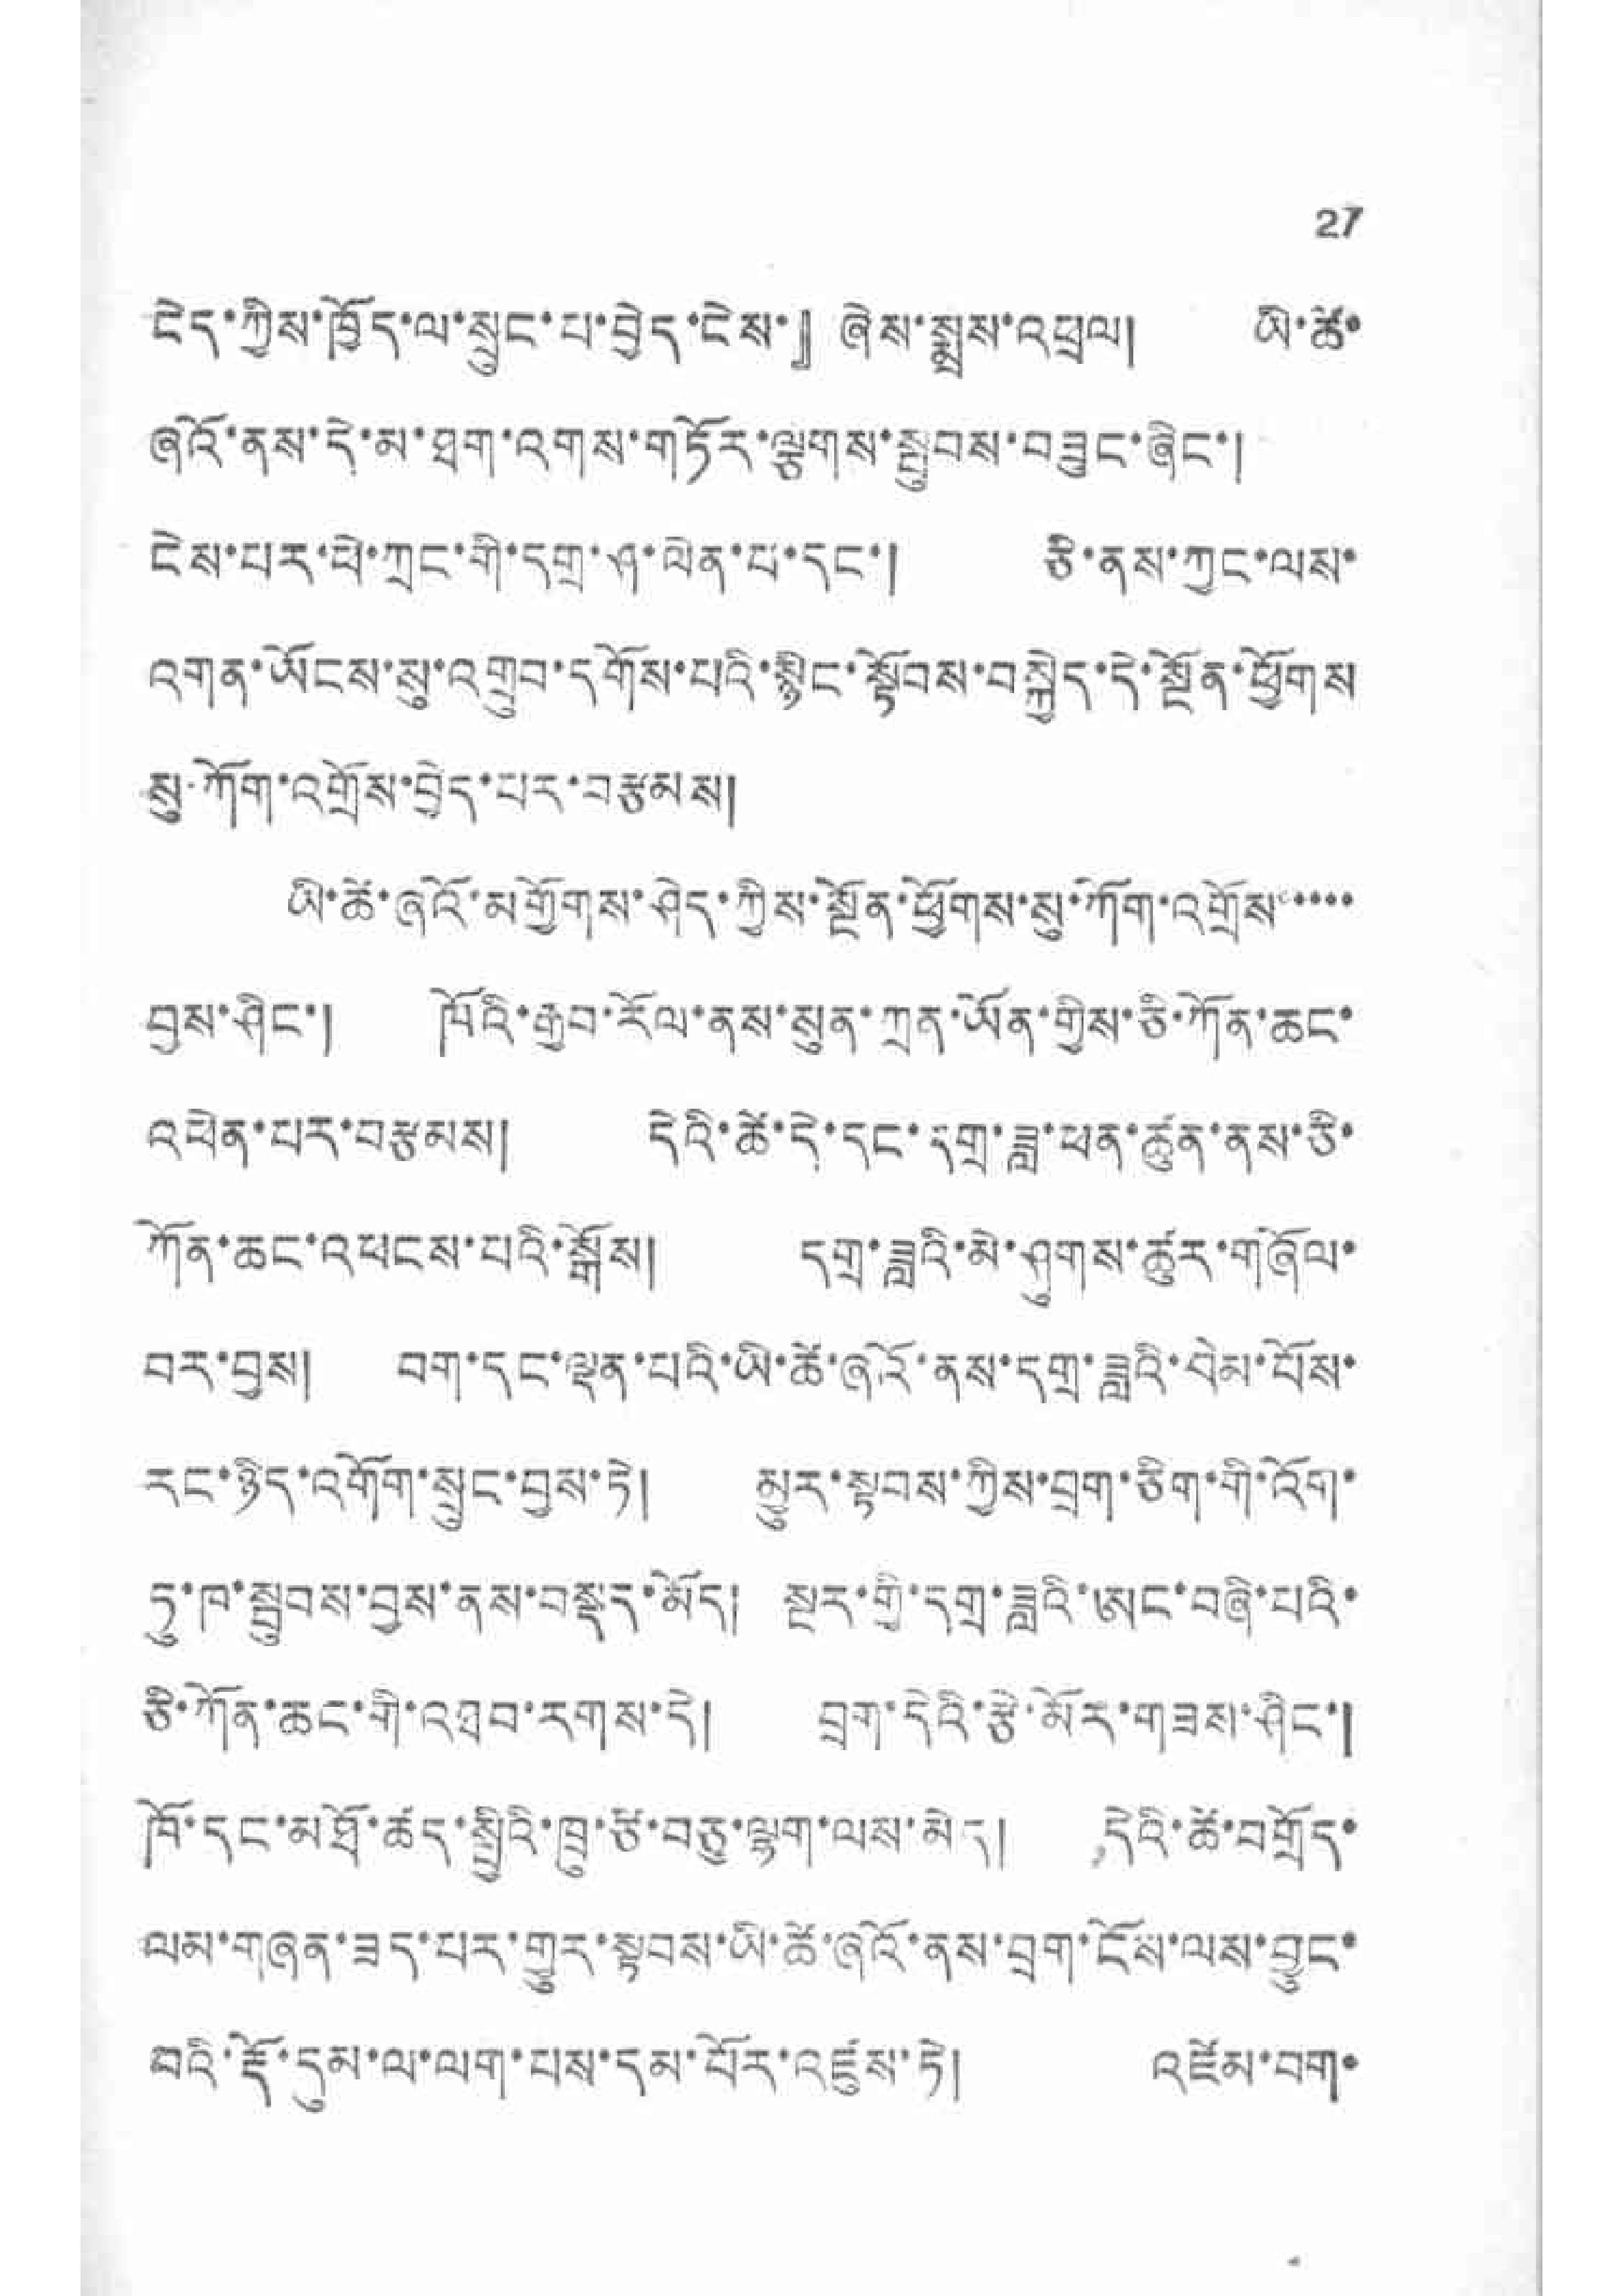27
ངེད་ཀྱིས་ཁྱོད་ལ་སྲུང་པ་བྱེད་ངེས་』ཞེས་སྨྲས་འཕྲལ། ཡི་ཚོ་
ཞའོ་ནས་དེ་མ་ཐག་འགས་གཏོར་ལྕགས་སྦུབས་བཟུང་ཞིང་།
ངེས་པར་ཕེ་ཀྲང་གི་དགྲ་ཤ་ལེན་པ་དང་། ཅི་ནས་ཀྱང་ལས་
འགན་ཡོངས་སུ་འགྲུབ་དགོས་པའི་སྙིང་སྟོབས་བསྐྱེད་དེ་སྔོན་ཕྱོགས
སུ་ཀོག་འགྲོས་བྱེད་པར་བརྩམས།
ཡི་ཚེ་ཞའོ་མགྱོགས་ཤེད་ཀྱིས་སྔོན་ཕྱོགས་སུ་ཀོག་འགྲོས་་་་་
བྱས་ཤིང་། ཁོའི་རྒྱབ་རོལ་ནས་སུན་ཀྲན་ཡོན་གྱིས་ཅི་ཀོན་ཆང་
འཕེན་པར་བརྩམས། དེའི་ཚེ་དེ་དང་དགྲ་ཟླ་ཕན་ཚུན་ནས་ཅི་
ཀོན་ཆང་འཕངས་པའི་སྒོས། དགྲ་ཟླའི་མེ་ཤུགས་ཚུར་གཞོལ་
བར་བྱས། བག་དང་ལྡན་པའི་ཡི་ཚེ་ཞའོ་ནས་དགྲ་ཟླའི་བེམ་པོས་
རང་ཉིད་འགོག་སྲུང་བྱས་ཏེ། མྱུར་སྟབས་ཀྱིས་བྲག་ཅིག་གི་འོག་
ཏུ་ཁ་སྦུབས་བྱས་ནས་བསྡད་མོད། སྔར་གྱི་དགྲ་ཟླའི་ཨང་བཞི་པའི་
ཅི་ཀོན་ཆུང་གི་འཐབ་རགས་དེ། བྲག་དེའི་རྩེ་མོར་གཟས་ཤིང་།
ཁོ་དང་མཐོ་ཚད་སྤྱིའི་ཁྲུ་ཙི་བཅུ་ལྷག་ལས་མེད། དེའི་ཆོ་བགྲོད་
ལམ་གཞན་ཟད་པར་གྱུར་སྟབས་ཡི་ཚེ་ཞའོ་ནས་བྲག་ངོས་ལས་བྱུང་
བའི་རྡོ་དུམ་ལ་ལག་པས་དམ་པོར་འཛུས་ཏེ། འཛོམ་བག་
